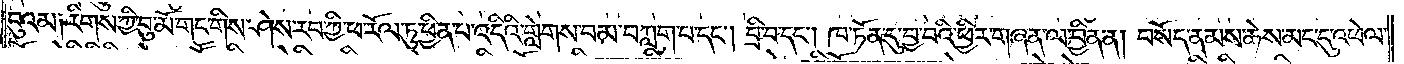བུའམ༑ རིགས་ཀྱི་བུ་མོ་གང་གིས་ཤེས་རབ་ཀྱི་ཕ་རོལ་ཏུ་ཕྱིན་པ་འདིའི་གླེགས་བམ་བཀླག་པ་དང༌། བྲི་བ་དང༌། ཁ་ཏོན་དུ་བྱ་བའི་ཕྱིར་གཞན་ལ་བྱིན་ན། བསོད་ནམས་ཆེས་མང་དུ་འཕེལ་
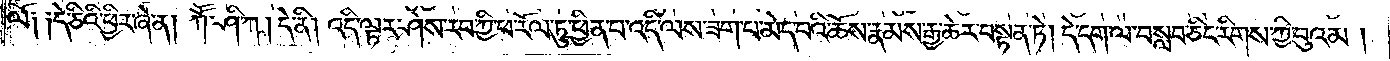ལོ༑ ༑དེ་ཅིའི་ཕྱིར་ཞེ་ན། ཀཽ་ཤི་ཀ། དེ་ནི། འདི་ལྟར་ཤེས་རབ་ཀྱི་ཕ་རོལ་ཏུ་ཕྱིན་པ་འདི་ལས་ཟག་པ་མེད་པའི་ཆོས་རྣམས་རྒྱ་ཆེར་བསྟན་ཏེ། དེ་དག་ལ་བསླབ་ཅིང་རིགས་ཀྱི་བུའམ།
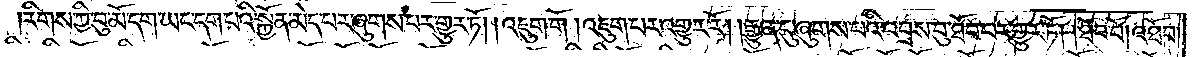རིགས་ཀྱི་བུ་མོ་དག་ཡང་དག་པའི་སྐྱོན་མེད་པར་ཞུགས་པར་གྱུར་ཏོ། །འཇུག་གོ །འཇུག་པར་འགྱུར་རོ། །རྒྱུན་དུ་ཞུགས་པའི་འབྲས་བུ་ཐོབ་པར་གྱུར་ཏོ། །ཐོབ་བོ། འཐོབ་
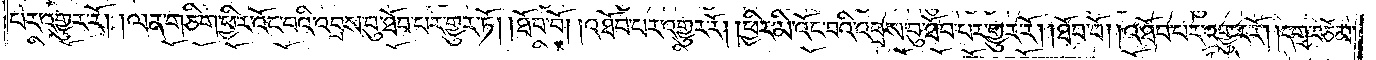པར་འགྱུར་རོ། །ལན་གཅིག་ཕྱིར་འོང་བའི་འབྲས་བུ་ཐོབ་པར་གྱུར་ཏོ། །ཐོབ་བོ། །འཐོབ་པར་འགྱུར་རོ། །ཕྱིར་མི་འོང་བའི་འབྲས་བུ་ཐོབ་པར་གྱུར་ཏོ། །ཐོབ་བོ། །འཐོབ་པར་འགྱུར་རོ། །དགྲ་བཅོམ་
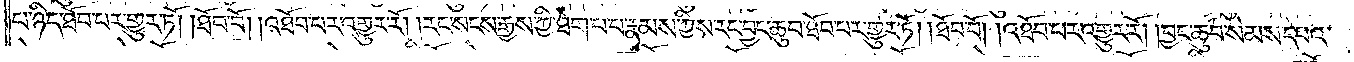པ་ཉིད་ཐོབ་པར་གྱུར་ཏོ། །ཐོབ་བོ། །འཐོབ་པར་འགྱུར་རོ། །རང་སངས་རྒྱས་ཀྱི་ཐེག་པ་པ་རྣམས་ཀྱིས་རང་བྱང་ཆུབ་ཐོབ་པར་གྱུར་ཏོ། །ཐོབ་བོ། །འཐོབ་པར་འགྱུར་རོ། །བྱང་ཆུབ་སེམས་དཔའ་
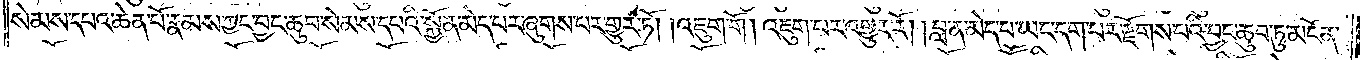སེམས་དཔའ་ཆེན་པོ་རྣམས་ཀྱང་བྱང་ཆུབ་སེམས་དཔའི་སྐྱོན་མེད་པར་ཞུགས་པར་གྱུར་ཏོ། །འཇུག་གོ། །འཇུག་པར་འགྱུར་རོ། །བླ་ན་མེད་པ་ཡང་དག་པར་རྫོགས་པའི་བྱང་ཆུབ་ཏུ་མངོན་
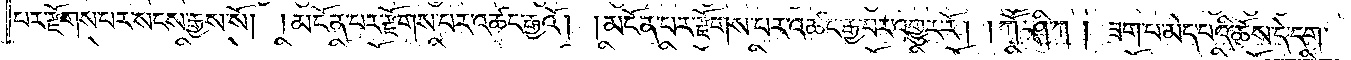པར་རྫོགས་པར་སངས་རྒྱས་སོ། །མངོན་པར་རྫོགས་པར་འཚང་རྒྱའོ། །མངོན་པར་རྫོགས་པར་འཚང་རྒྱ་བར་འགྱུར་རོ། །ཀཽ་ཤི་ཀ། ཟག་པ་མེད་པའི་ཆོས་དེ་དག་
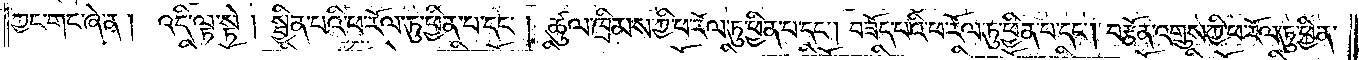ཀྱང་གང་ཞེ་ན། འདི་ལྟ་སྟེ། སྦྱིན་པའི་ཕ་རོལ་ཏུ་ཕྱིན་པ་དང༌། ཚུལ་ཁྲིམས་ཀྱི་ཕ་རོལ་ཏུ་ཕྱིན་པ་དང༌། བཟོད་པའི་ཕ་རོལ་ཏུ་ཕྱིན་པ་དང༌། བརྩོན་འགྲུས་ཀྱི་ཕ་རོལ་ཏུ་ཕྱིན་
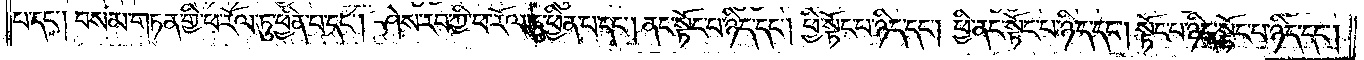པ་དང༌། བསམ་གཏན་གྱི་ཕ་རོལ་ཏུ་ཕྱིན་པ་དང༌། ཤེས་རབ་ཀྱི་ཕ་རོལ་ཏུ་ཕྱིན་པ་དང༌། ནང་སྟོང་པ་ཉིད་དང༌། ཕྱི་སྟོང་པ་ཉིད་དང༌། ཕྱི་ནང་སྟོང་པ་ཉིད་དང༌། སྟོང་པ་ཉིད་སྟོང་པ་ཉིད་དང༌།
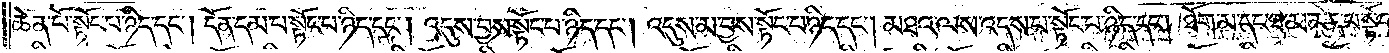ཆེན་པོ་སྟོང་པ་ཉིད་དང༌། དོན་དམ་པ་སྟོང་པ་ཉིད་དང༌། འདུས་བྱས་སྟོང་པ་ཉིད་དང༌། འདུས་མ་བྱས་སྟོང་པ་ཉིད་དང༌། མཐའ་ལས་འདས་པ་སྟོང་པ་ཉིད་དང༌། ཐོག་མ་དང་ཐ་མ་མེད་པ་སྟོང་
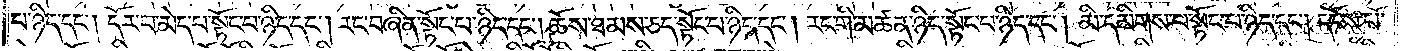པ་ཉིད་དང༌། དོར་བ་མེད་པ་སྟོང་པ་ཉིད་དང༌། རང་བཞིན་སྟོང་པ་ཉིད་དང༌། ཆོས་ཐམས་ཅད་སྟོང་པ་ཉིད་དང༌། རང་གི་མཚན་ཉིད་སྟོང་པ་ཉིད་དང༌། མི་དམིགས་པ་སྟོང་པ་ཉིད་དང༌། དངོས་པོ་
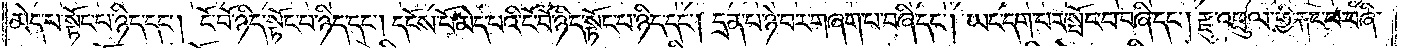མེད་པ་སྟོང་པ་ཉིད་དང༌། ངོ་བོ་ཉིད་སྟོང་པ་ཉིད་དང༌། དངོས་པོ་མེད་པའི་ངོ་བོ་ཉིད་སྟོང་པ་ཉིད་དང༌། དྲན་པ་ཉེ་བར་གཞག་པ་བཞི་དང༌། ཡང་དག་པར་སྤོང་བ་བཞི་དང༌། རྫུ་འཕྲུལ་གྱི་རྐང་པ་བཞི་
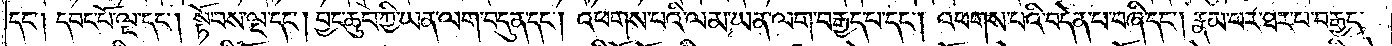དང༌། དབང་པོ་ལྔ་དང༌། སྟོབས་ལྔ་དང༌། བྱང་ཆུབ་ཀྱི་ཡན་ལག་བདུན་དང༌། འཕགས་པའི་ལམ་ཡན་ལག་བརྒྱད་པ་དང༌། འཕགས་པའི་བདེན་པ་བཞི་དང༌། རྣམ་པར་ཐར་པ་བརྒྱད་
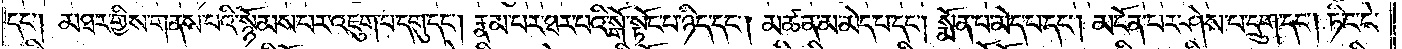དང༌། མཐར་གྱིས་གནས་པའི་སྙོམས་པར་འཇུག་པ་དགུ་དང༌། རྣམ་པར་ཐར་པའི་སྒོ་སྟོང་པ་ཉིད་དང༌། མཚན་མ་མེད་པ་དང༌། སྨོན་པ་མེད་པ་དང༌། མངོན་པར་ཤེས་པ་དྲུག་དང༌། ཏིང་ངེ་
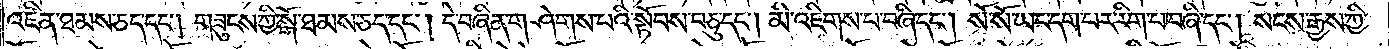འཛིན་ཐམས་ཅད་དང༌། གཟུངས་ཀྱི་སྒོ་ཐམས་ཅད་དང༌། དེ་བཞིན་གཤེགས་པའི་སྟོབས་བཅུ་དང༌། མི་འཇིགས་པ་བཞི་དང༌། སོ་སོ་ཡང་དག་པར་རིག་པ་བཞི་དང༌། སངས་རྒྱས་ཀྱི་
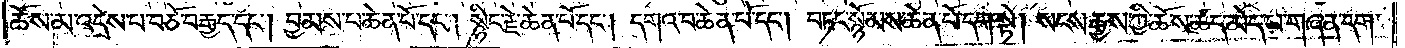ཆོས་མ་འདྲེས་པ་བཅོ་བརྒྱད་དང༌། བྱམས་པ་ཆེན་པོ་དང༌། སྙིང་རྗེ་ཆེན་པོ་དང༌། དགའ་བ་ཆེན་པོ་དང༌། བཏང་སྙོམས་ཆེན་པོ་དག་སྟེ། སངས་རྒྱས་ཀྱི་ཆོས་ཚད་མེད་པ་གཞན་དག་
